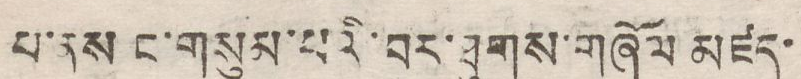པ་ནས ང་གསུམ་པའི་བར་ཐུགས་གཞོལ མཛད་
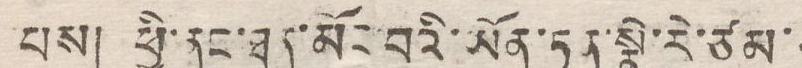པས། ཕྱི་ནང་ཐུན་མོང་བའི་ཡོན་ཏན་སྣེ་རེ་ཙམ་
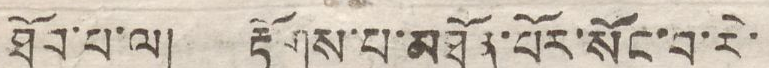ཐོབ་པ་ལ། རྟོགས་པ་མཐོན་པོར་སོང་བ་རེ་
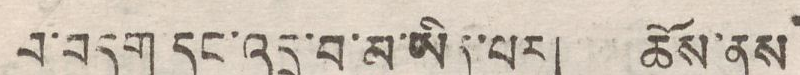བ་བདག དང་འདྲ་བ་མ་ཡིན་པར། ཆོས་ནས
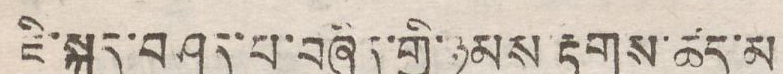ཇི་སྐད་བཤད་པ་བཞིན་གྱི་ཉམས རྟགས་ཚད་མ
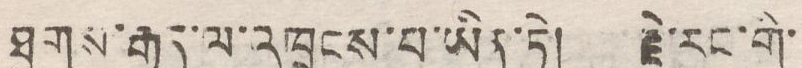ཐུགས་རྒྱུན་ལ་འཁྲུངས་པ་ཡིན་ཏེ། རྗེ་རང་གི་
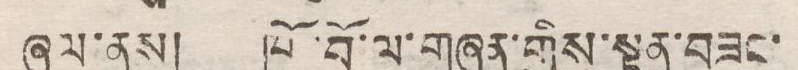ཞལ་ནས། ཁོ་བོ་ལ་གཞན་གྱིས་སྟན་བཟང་
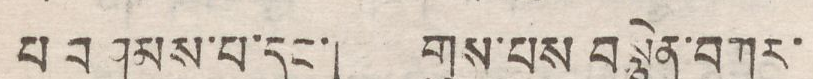པ བཤམས་པ་དང་། གུས་པས བསྙེན་བཀུར་
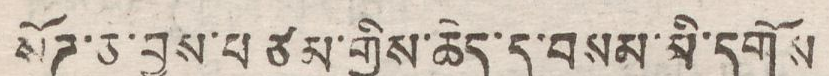སོཌ་ཅ་བྱས་པ ཙམ་གྱིས་ཆེད་དུ་བསམ་མི་དགོས
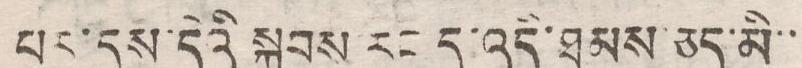པར་དུས་དེའི སྐབས རང་དུ་འདི་ཐམས་ཅད་མི་་
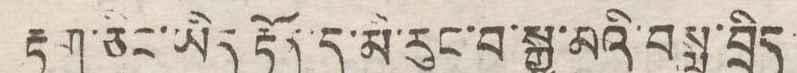རྟག་ཅིང་ཡིད རྟོན་དུ་མི་རུང་བ་སྒྱུ་མའི་བསླུ་བྲིད
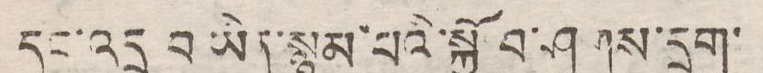དང་འདྲ བ་ཡིད་སྙམ་པའི་སྐྱོ བ་ཤུགས་དྲག་
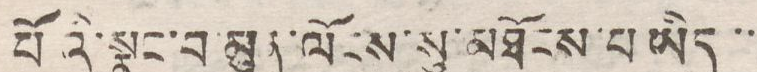པོའི་སྣང་བ་མུན་ལོངས་སུ་མཐོངས་པ ཡིད་་
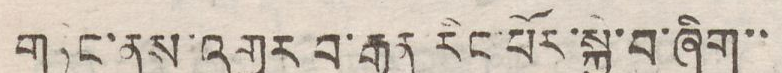གཏོང་ནས་འགྱུར བ་རྒྱུན རིང་པོར་སྐྱེ་བ་ཞིག་་
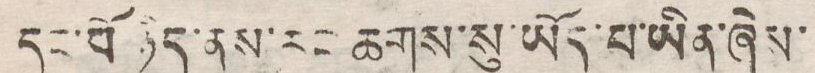དང་པོ ཉིད་ནས་རང ཆགས་སུ་ཡོད་པ་ཡིན་ཞེས་
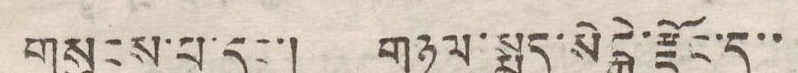གསུངས་པ་དང་། གཉལ་སྨད་སེངྒེ་རྫོང་དུ་་
